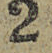2
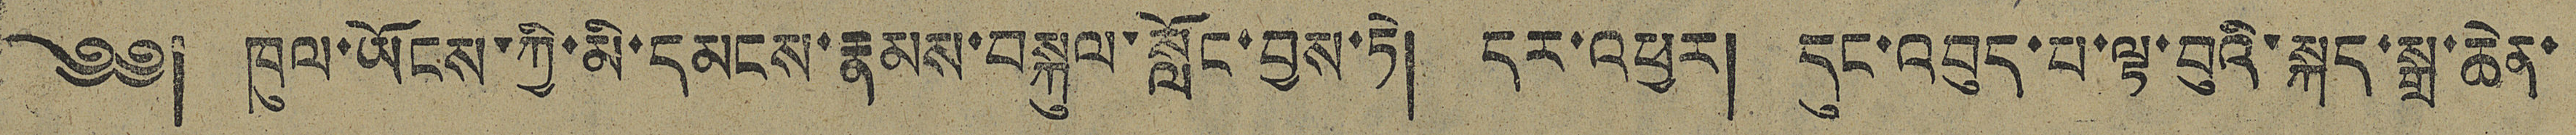༄༅། ཁུལ་ཡོངས་ཀྱི་མི་དམངས་རྣམས་བསྐུལ་སློང་བྱས་སྟེ། དར་འཕྱར། དུང་འབུད་པ་ལྟ་བུའི་སྐད་སྒྲ་ཆེན་
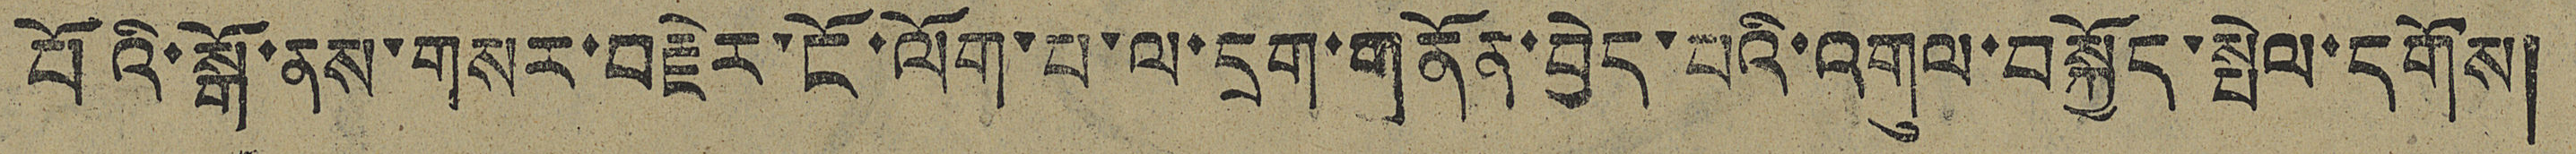པོའི་སྒོ་ནས་གསར་བརྗེར་ངོ་ལོག་པ་ལ་དྲག་གནོན་བྱེད་པའི་འགུལ་བསྐྱོད་སྤེལ་དགོས།
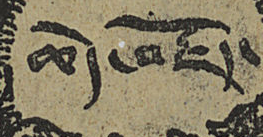ཆེད་བརྗོད་
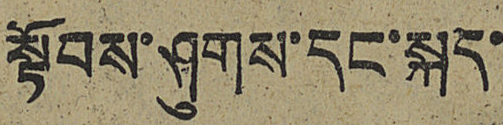སྟོབས་ཤུགས་དང་སྐད་
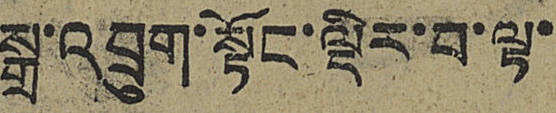སྒྲ་འབྲུག་སྟོང་ལྡིར་བ་ལྟ་
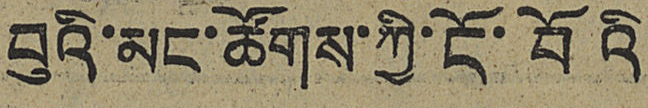བུའི་མང་ཚོགས་ཀྱི་ངོ་བོའི
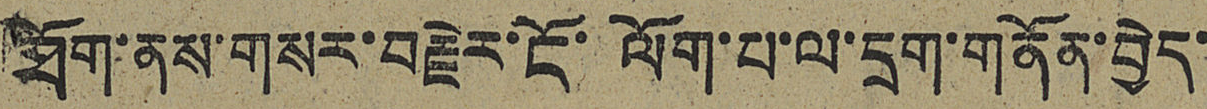ཐོག་ནས་གསར་བརྗེར་ངོ་ལོག་པ་ལ་དྲག་གནོན་བྱེད་
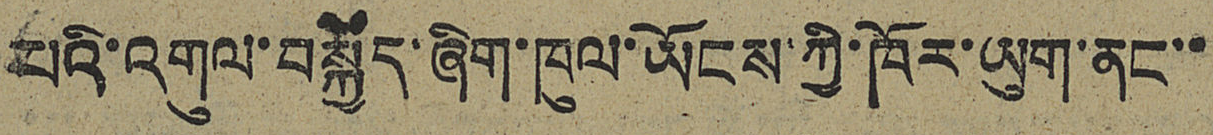པའི་འགུལ་བསྐྱོད་ཞིག་ཁུལ་ཡོངས་ཀྱི་ཁོར་ཡུག་ནང་་
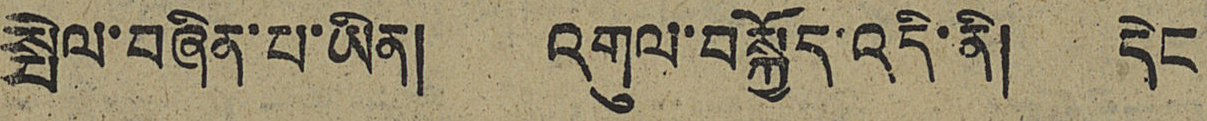སྤེལ་བཞིན་པ་ཡིན། འགུལ་བསྐྱོད་འདི་ནི། དེང
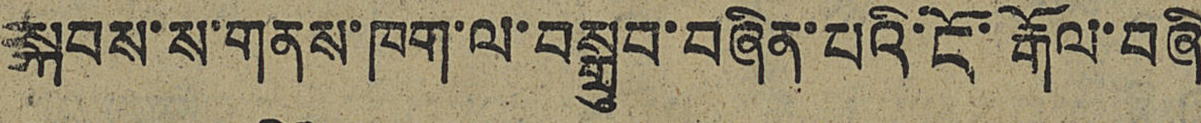སྐབས་ས་གནས་ཁག་ལ་བསྒྲུབ་བཞིན་པའི་ངོ་རྒོལ་བཞི
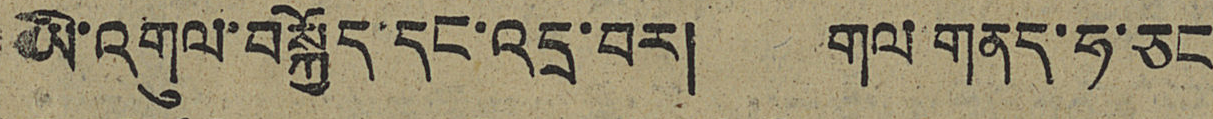ཡི་འགུལ་བསྐྱོད་དང་འདྲ་བར། གལ གནད་ཧ་ཅང
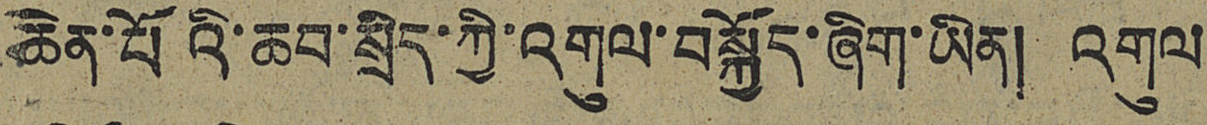ཆེན་པོའི་ཆབ་སྲིད་ཀྱི་འགུལ་བསྐྱོད་ཞིག་ཡིན། འགུལ
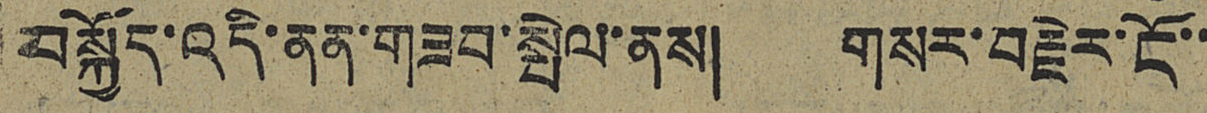བསྐྱོད་འདི་ནན་གཟབ་སྤེལ་ནས། གསར་བརྗེར་ངོ་་
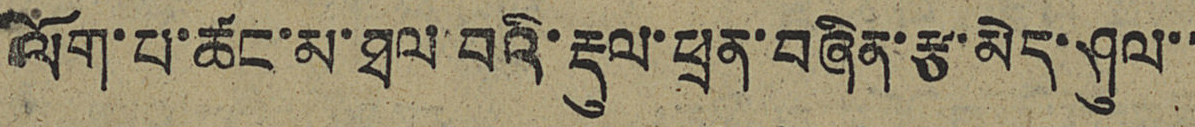ལོག་པ་ཚང་མ་ཐལ་བའི་རྡུལ་ཕྲན་བཞིན་རྩ་མེད་ཤུལ་་
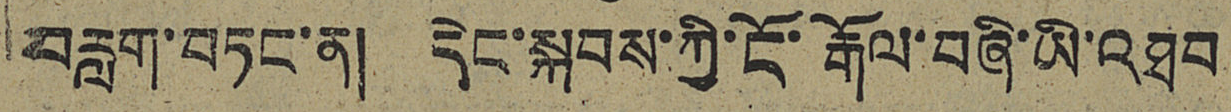བརླག་བཏང་ན། དེང་སྐབས་ཀྱི་ངོ་རྒོལ་བཞི་ཡི་འཐབ
